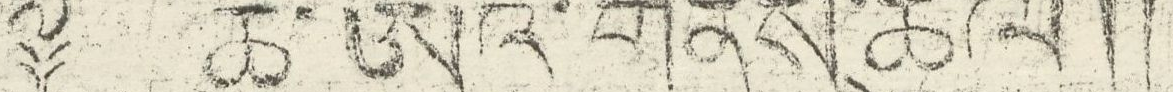༈ ཆུ་ཨའི་གནས་ཚུལ།།
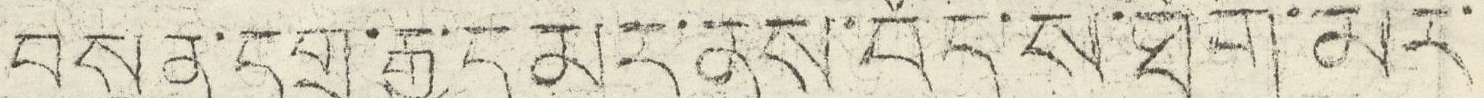བསྟན་དགྲ་རྒྱ་དམར་ནས་བོད་ས་ཐོག་མར་
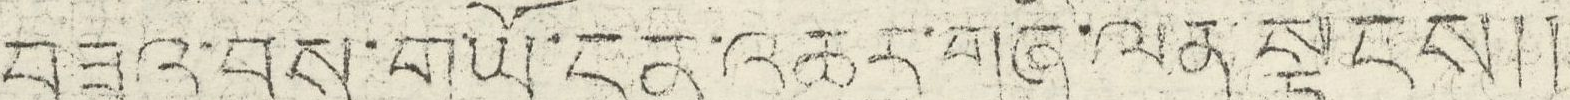བཟའ་བས་གཡོ་ངན་འཆར་གཞི་ལེན་སྟངས།།
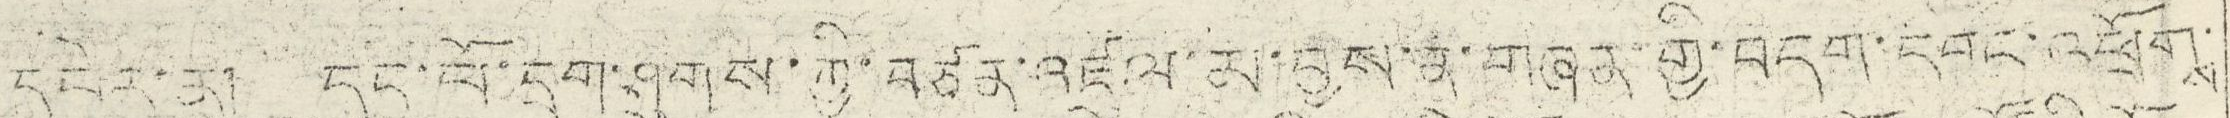དཔེར་ན། དང་པོ་དྲག་ཤུགས་ཀྱི་བཙན་འཛུལ་མ་བྱས་ན་གཞན་གྱི་བདག་དབང་འཕྲོགས་
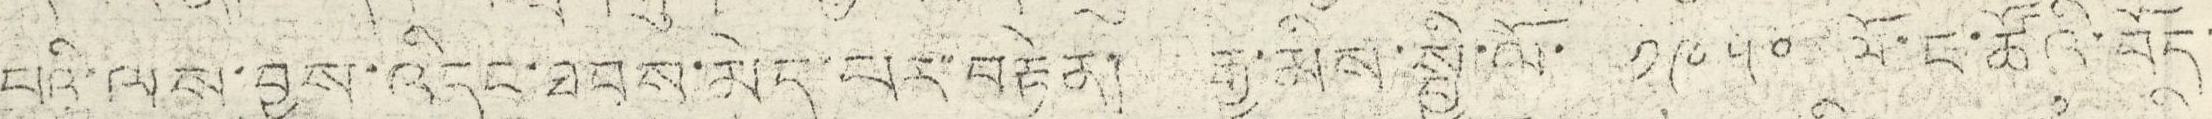པའི་ལས་བྱུས་འདིང་ཐབས་མེད་པར་པར་བརྟེན། རྒྱ་མིས་སྤྱི་ལོ་ ༡༩༥༠ ལོ་ང་ཚོའི་བོད་
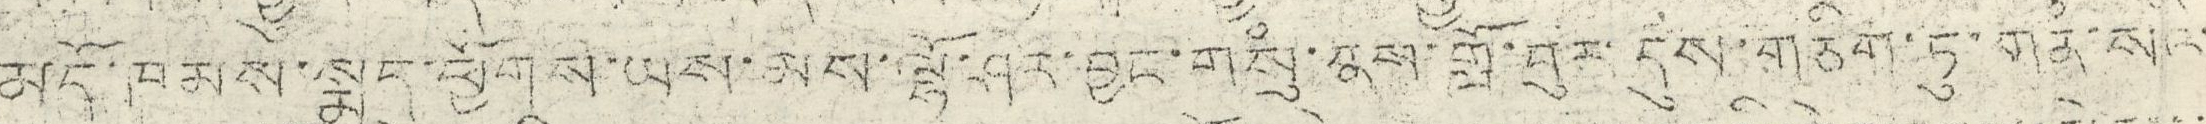མདོ་ཁམས་སྨད་ཕྱོགས་ཡས་མས་ལྷོ་ཤར་བྱང་གསུཾ་ནས་གློ་བུར་དུས་གཅིག་ཏུ་གནཾ་སའི་
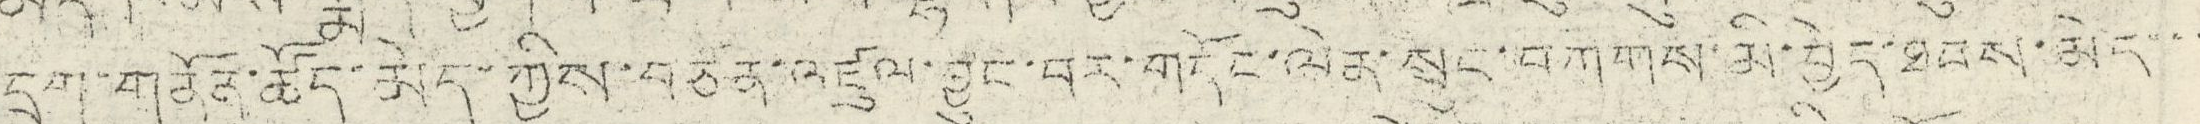དྲག་གནོན་ཚོད་མེད་ཀྱིས་བཙན་འཛུལ་བྱུང་བར་གདོང་ལེན་སྲུང་བཀགས་མི་བྱེད་ཐབས་མེད་་་
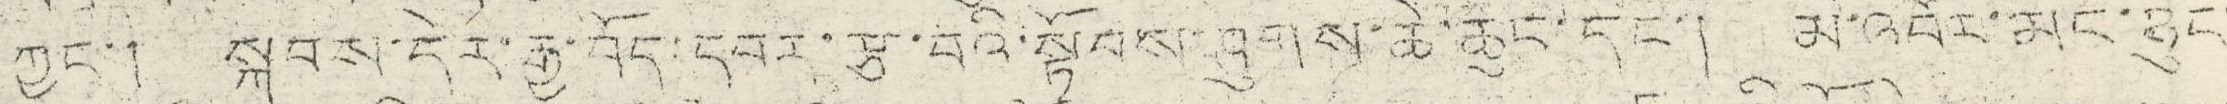ཀྱང་། སྐབས་དེར་རྒྱ་བོད་དབར་རྩ་བའི་སྟོབས་ཤུགས་ཆེ་ཆུང་དང་། མི་འབོར་མང་ཉུང་
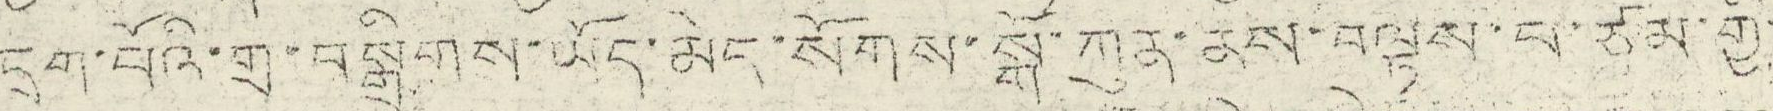དྲག་པོའི་གྲ་བསྒྲིགས་ཡོད་མེད་སོགས་སྒོ་ཀུན་ནས་བལྟས་པ་ཙམ་གྱི་
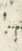ཀ་
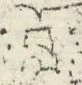བློ
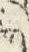ན་
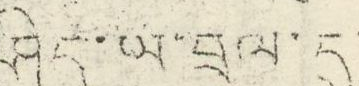ཤེད་ཡ་བྲལ་དུ་
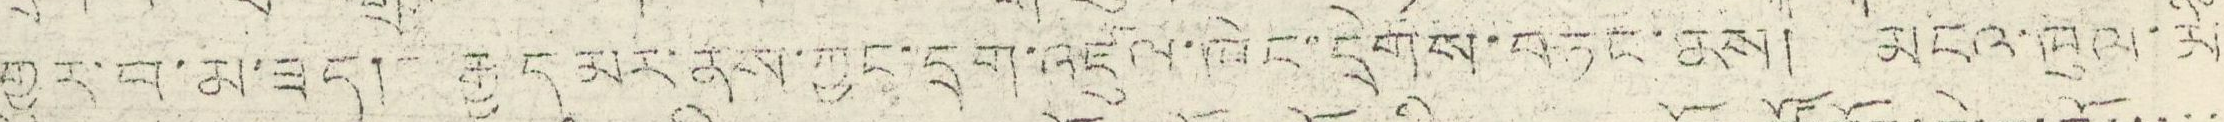གྱུར་བ་མ་ཟད། རྒྱད་མར་ནས་ཀྱང་དྲག་འཛུལ་ཁེང་དྲེགས་བཏང་ནས། མངའ་ཁུལ་མི་
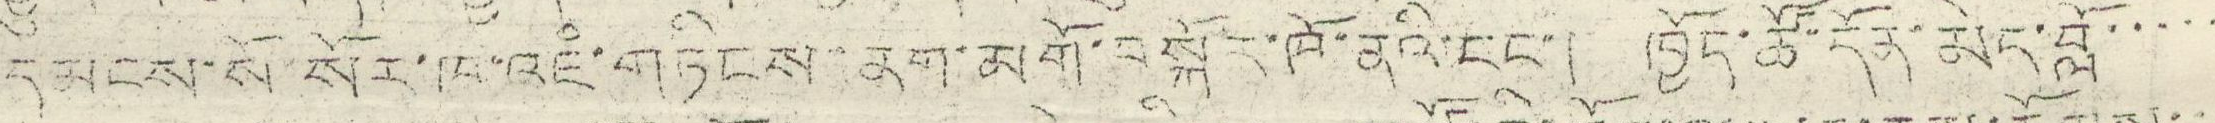དམངས་སོ་སོར་ཁ་འཇཾ་གཏིངས་ནག་མགོ་བསྐོར་ཁོ་ནའི་ངང་། ཁྱོད་ཚོ་དོན་མེད་བློ་་་་་
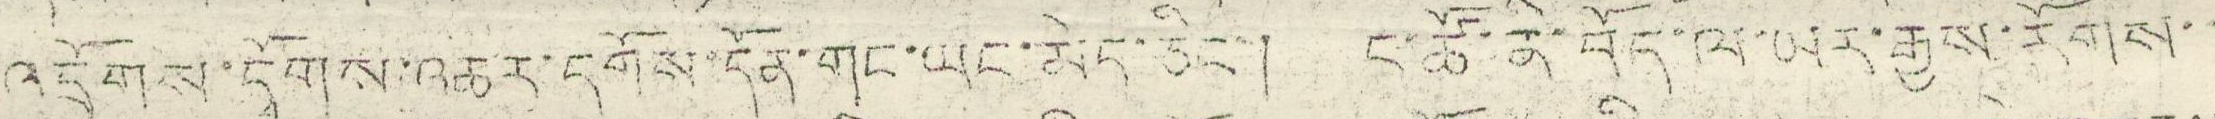འདྲོགས་དགོས་འཆར་དགོས་དོན་གང་ཡང་མེད་ཅིང་། ང་ཚོ་ནི་བོད་ལ་ཡར་རྒྱས་རོགས་་
